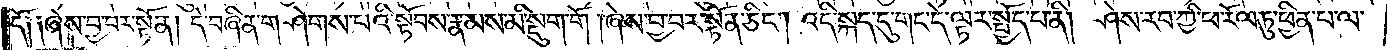དོ༑ ༑ཞེས་བྱ་བར་སྟོན། དེ་བཞིན་གཤེགས་པའི་སྟོབས་རྣམས་མི་སྡུག་གོ །ཞེས་བྱ་བར་སྟོན་ཅིང༌། འདི་སྐད་དུ་གང་དེ་ལྟར་སྤྱོད་པ་ནི། ཤེས་རབ་ཀྱི་ཕ་རོལ་ཏུ་ཕྱིན་པ་ལ་
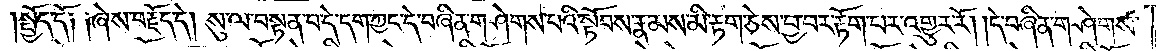སྤྱོད་དོ༑ ༑ཞེས་བརྗོད་དེ། སུ་ལ་བསྟན་པ་དེ་དག་ཀྱང་དེ་བཞིན་གཤེགས་པའི་སྟོབས་རྣམས་མི་རྟག་ཅེས་བྱ་བར་རྟོག་པར་འགྱུར་རོ། །དེ་བཞིན་གཤེགས་
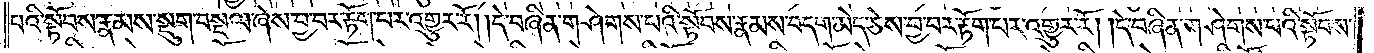པའི་སྟོབས་རྣམས་སྡུག་བསྔལ་ཞེས་བྱ་བར་རྟོག་པར་འགྱུར་རོ། །དེ་བཞིན་གཤེགས་པའི་སྟོབས་རྣམས་བདག་མེད་ཅེས་བྱ་བར་རྟོག་པར་འགྱུར་རོ། །དེ་བཞིན་གཤེགས་པའི་སྟོབས་
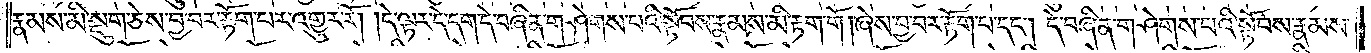རྣམས་མི་སྡུག་ཅེས་བྱ་བར་རྟོག་པར་འགྱུར་རོ། །དེ་ལྟར་དེ་དག་དེ་བཞིན་གཤེགས་པའི་སྟོབས་རྣམས་མི་རྟག་གོ །ཞེས་བྱ་བར་རྟོག་པ་དང༌། དེ་བཞིན་གཤེགས་པའི་སྟོབས་རྣམས་
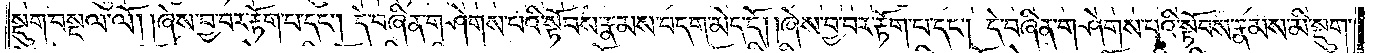སྡུག་བསྔལ་ལོ། །ཞེས་བྱ་བར་རྟོག་པ་དང༌། དེ་བཞིན་གཤེགས་པའི་སྟོབས་རྣམས་བདག་མེད་དོ། །ཞེས་བྱ་བར་རྟོག་པ་དང༌། དེ་བཞིན་གཤེགས་པའི་སྟོབས་རྣམས་མི་སྡུག་
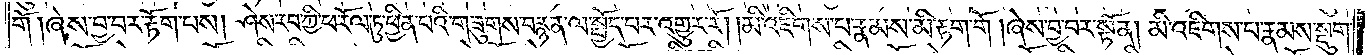གོ །ཞེས་བྱ་བར་རྟོག་པས། ཤེས་རབ་ཀྱི་ཕ་རོལ་ཏུ་ཕྱིན་པའི་གཟུགས་བརྙན་ལ་སྤྱོད་པར་འགྱུར་རོ། །མི་འཇིགས་པ་རྣམས་མི་རྟག་གོ །ཞེས་བྱ་བར་སྟོན། མི་འཇིགས་པ་རྣམས་སྡུག་
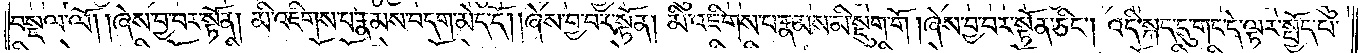བསྔལ་ལོ། །ཞེས་བྱ་བར་སྟོན། མི་འཇིགས་པ་རྣམས་བདག་མེད་དོ། །ཞེས་བྱ་བར་སྟོན། མི་འཇིགས་པ་རྣམས་མི་སྡུག་གོ །ཞེས་བྱ་བར་སྟོན་ཅིང༌། འདི་སྐད་དུ་གང་དེ་ལྟར་སྤྱོད་པ་
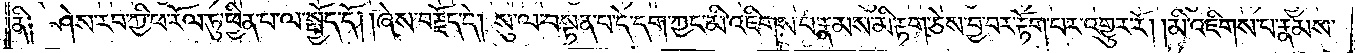ནི༑ ཤེས་རབ་ཀྱི་ཕ་རོལ་ཏུ་ཕྱིན་པ་ལ་སྤྱོད་དོ། །ཞེས་བརྗོད་དེ། སུ་ལ་བསྟན་པ་དེ་དག་ཀྱང་མི་འཇིགས་པ་རྣམས་མི་རྟག་ཅེས་བྱ་བར་རྟོག་པར་འགྱུར་རོ། །མི་འཇིགས་པ་རྣམས་
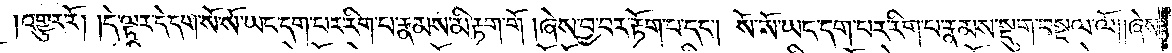འགྱུར་རོ། །དེ་ལྟར་དེ་དག་སོ་སོ་ཡང་དག་པར་རིག་པ་རྣམས་མི་རྟག་གོ། ཞེས་བྱ་བར་རྟོག་པ་དང༌། སོ་སོ་ཡང་དག་པར་རིག་པ་རྣམས་སྡུག་བསྔལ་ལོ། །ཞེས་
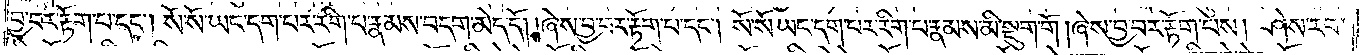བྱ་བར་རྟོག་པ་དང༌། སོ་སོ་ཡང་དག་པར་རིག་པ་རྣམས་བདག་མེད་དོ། །ཞེས་བྱ་བར་རྟོག་པ་དང༌། སོ་སོ་ཡང་དག་པར་རིག་པ་རྣམས་མི་སྡུག་གོ། ཞེས་བྱ་བར་རྟོག་པས། ཤེས་རབ་
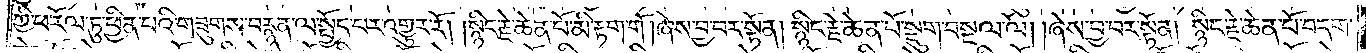ཀྱི་ཕ་རོལ་ཏུ་ཕྱིན་པའི་གཟུགས་བརྙན་ལ་སྤྱོད་པར་འགྱུར་རོ། །སྙིང་རྗེ་ཆེན་པོ་མི་རྟག་གོ། ཞེས་བྱ་བར་སྟོན། སྙིང་རྗེ་ཆེན་པོ་སྡུག་བསྔལ་ལོ། །ཞེས་བྱ་བར་སྟོན། སྙིང་རྗེ་ཆེན་པོ་བདག་
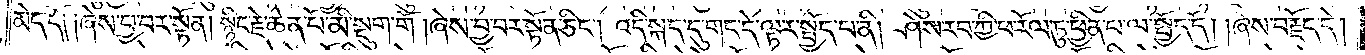མེད་དོ༑ ༑ཞེས་བྱ་བར་སྟོན། སྙིང་རྗེ་ཆེན་པོ་མི་སྡུག་གོ །ཞེས་བྱ་བར་སྟོན་ཅིང༌། འདི་སྐད་དུ་གང་དེ་ལྟར་སྤྱོད་བ་ནི། ཤེས་རབ་ཀྱི་ཕ་རོལ་ཏུ་ཕྱིན་པ་ལ་སྤྱོད་དོ། །ཞེས་བརྗོད་དེ།
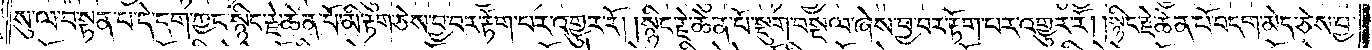སུ་ལ་བསྟན་པ་དེ་དག་ཀྱང་སྙིང་རྗེ་ཆེན་པོ་མི་རྟག་ཅེས་བྱ་བར་རྟོག་པར་འགྱུར་རོ། །སྙིང་རྗེ་ཆེན་པོ་སྡུག་བསྔལ་ཞེས་བྱ་བར་རྟོག་པར་འགྱུར་རོ། །སྙིང་རྗེ་ཆེན་པོ་བདག་མེད་ཅེས་བྱ་
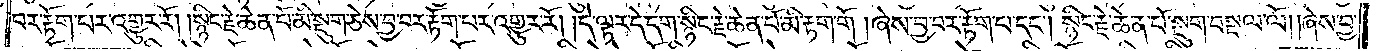བར་རྟོག་པར་འགྱུར་རོ། །སྙིང་རྗེ་ཆེན་པོ་མི་སྡུག་ཅེས་བྱ་བར་རྟོག་པར་འགྱུར་རོ། །དེ་ལྟར་དེ་དག་སྙིང་རྗེ་ཆེན་པོ་མི་རྟག་གོ །ཞེས་བྱ་བར་རྟོག་པ་དང༌། སྙིང་རྗེ་ཆེན་པོ་སྡུག་བསྔལ་ལོ། །ཞེས་བྱ་
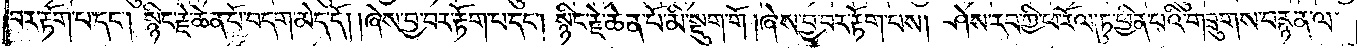བར་རྟོག་པ་དང༌། སྙིང་རྗེ་ཆེན་པོ་བདག་མེད་དོ། །ཞེས་བྱ་བར་རྟོག་པ་དང༌། སྙིང་རྗེ་ཆེན་པོ་མི་སྡུག་གོ །ཞེས་བྱ་བར་རྟོག་པས། ཤེས་རབ་ཀྱི་ཕ་རོལ་ཏུ་ཕྱིན་པའི་གཟུགས་བརྙན་ལ་
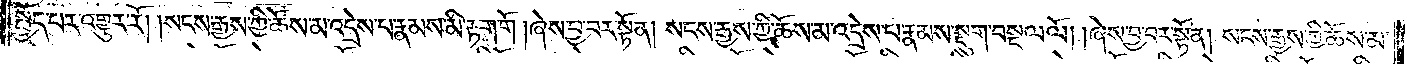སྤྱོད་པར་འགྱུར་རོ། །སངས་རྒྱས་ཀྱི་ཆོས་མ་འདྲེས་པ་རྣམས་མི་རྟག་གོ། ཞེས་བྱ་བར་སྟོན། སངས་རྒྱས་ཀྱི་ཆོས་མ་འདྲེས་པ་རྣམས་སྡུག་བསྔལ་ལོ། །ཞེས་བྱ་བར་སྟོན། སངས་རྒྱས་ཀྱི་ཆོས་མ་
